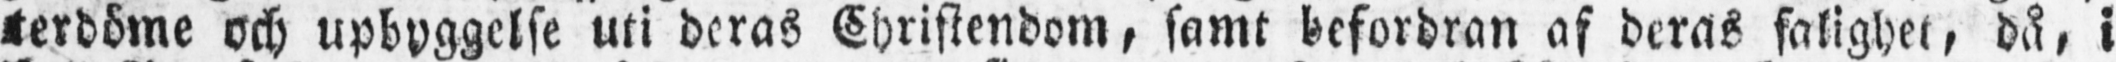terdöme och upbyggelse uti deras Christendom, samt befordran af deras salighet, då, i
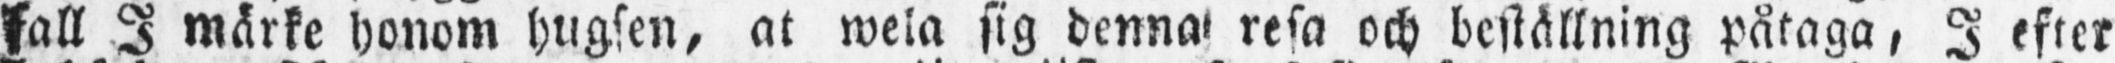fall I märke honom hugsen, at wela sig denna resa och beställning påtaga, I efter
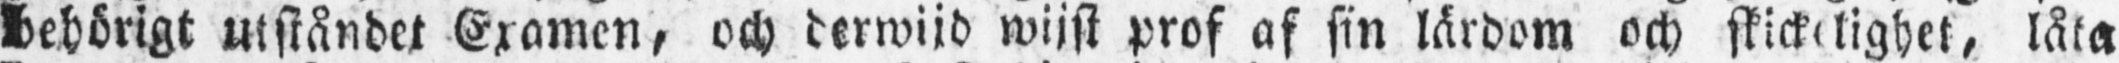behörigt utståndet Examen, och derwijd wijst prof af sin lärdom och skickelighet, låta
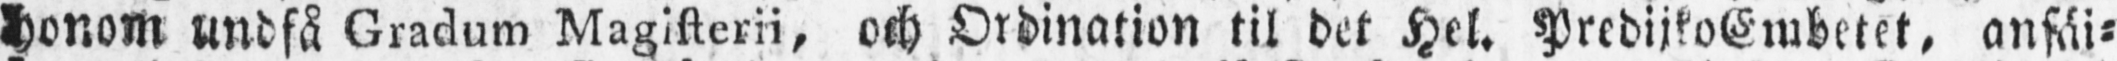honom undfå Gradum Magisterii, och Ordination til det Hel. PredijkoEmbetet, ansäi-
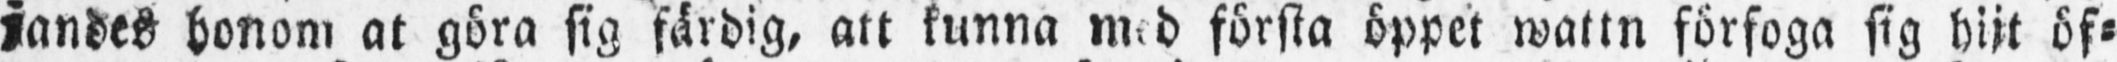jandes honom at göra sig färdig, att kunna med första öppet wattn förfoga sig hijt öf-
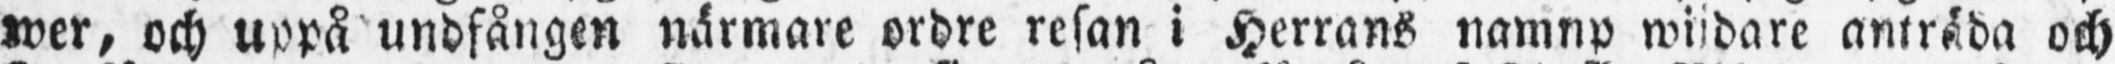wer, och uppå undfången närmare ordre resan i Herrans namnp wijdare anträda och
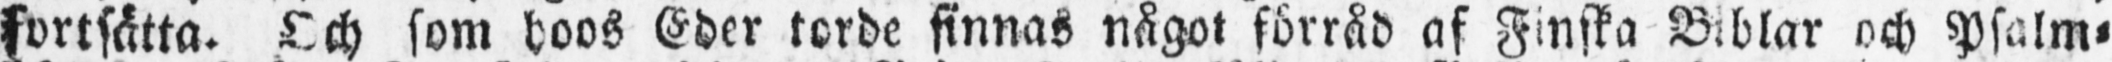fortsätta. Och som hoos Eder torde finnas något förråd af Finska Biblar och Psalm-
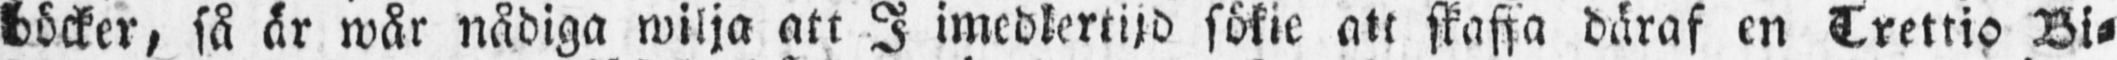böcker, så är wår nådiga wilja att I imedlertijd sökie att skaffa däraf en Trettio Bi-
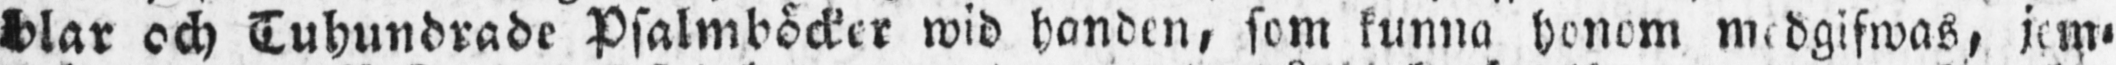blar och Tuhundrade Psalmböcker wid handen, som kunna honom medgifwas, jem-
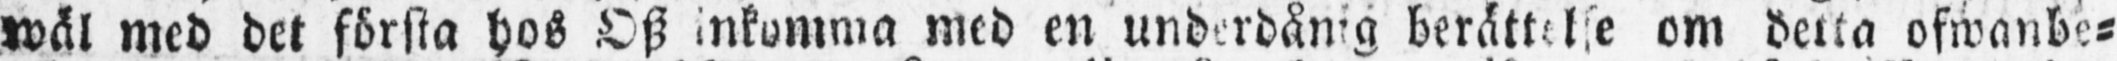wäl med det första hos Osz inkomma med en underdånig berättelse om detta ofwanbe-
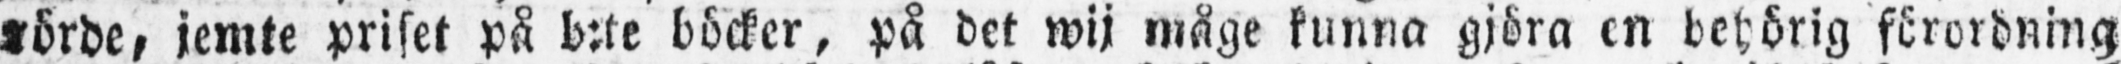rörde, jemte priset på b:te böcker, på det wij måge kunna gjöra en behörig förordning
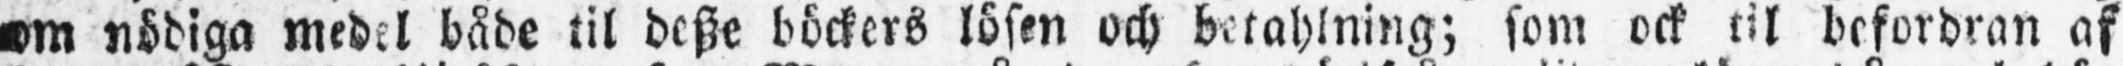om nödiga medel både til desze böckers lösen och betahlning; som ock til befordran af
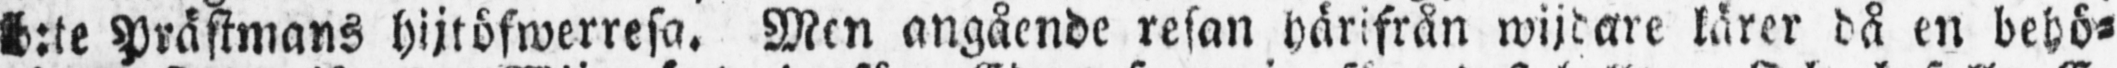b:te Prästmans hijtöfwerresa. Men angående resan härifrån wijdare lärer då en behö-
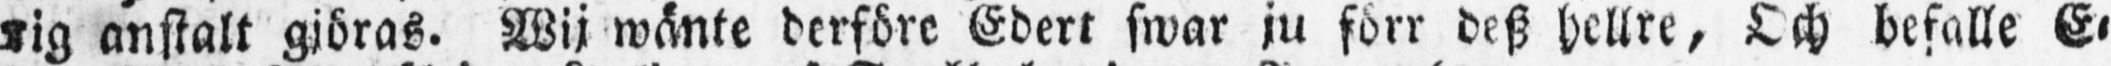rig anstalt gjöras. Wij wänte derföre Edert swar ju förr desz hellre, Och befalle E-
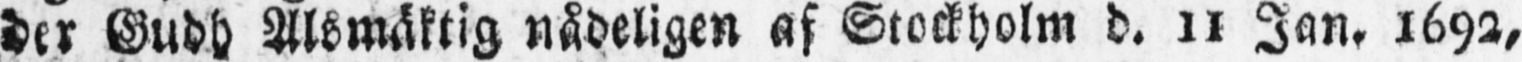der Gudh Alsmäktig nådeligen af Stockholm d. 11 Jan. 1692,
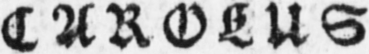CAROLUS
